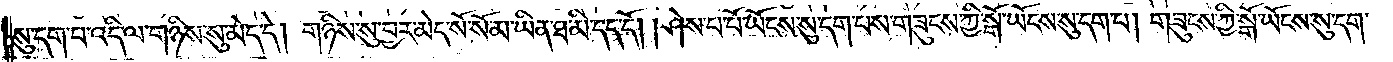སུ་དག་པ་འདི་ལ་གཉིས་སུ་མེད་དེ། གཉིས་སུ་བྱར་མེད་སོ་སོ་མ་ཡིན་ཐ་མི་དད་དོ། །ཤེས་པ་པོ་ཡོངས་སུ་དག་པས་གཟུངས་ཀྱི་སྒོ་ཡོངས་སུ་དག་པ། གཟུངས་ཀྱི་སྒོ་ཡོངས་སུ་དག་
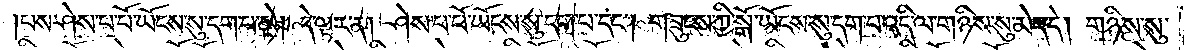པས་ཤེས་པ་པོ་ཡོངས་སུ་དག་པ་སྟེ། དེ་ལྟར་ན། ཤེས་པ་པོ་ཡོངས་སུ་དག་པ་དང༌། གཟུངས་ཀྱི་སྒོ་ཡོངས་སུ་དག་པ་འདི་ལ་གཉིས་སུ་མེད་དེ། གཉིས་སུ་
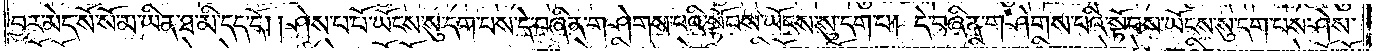བྱར་མེད་སོ་སོ་མ་ཡིན་ཐ་མི་དད་དོ། །ཤེས་པ་པོ་ཡོངས་སུ་དག་པས་དེ་བཞིན་གཤེགས་པའི་སྟོབས་ཡོངས་སུ་དག་པ། དེ་བཞིན་གཤེགས་པའི་སྟོབས་ཡོངས་སུ་དག་པས་ཤེས་
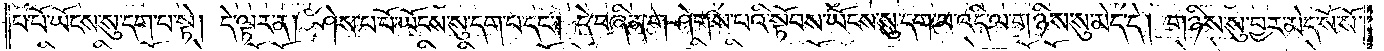པ་པོ་ཡོངས་སུ་དག་པ་སྟེ། དེ་ལྟར་ན། ཤེས་པ་པོ་ཡོངས་སུ་དག་པ་དང༌། དེ་བཞིན་གཤེགས་པའི་སྟོབས་ཡོངས་སུ་དག་པ་འདི་ལ་གཉིས་སུ་མེད་དེ། གཉིས་སུ་བྱར་མེད་སོ་སོ་
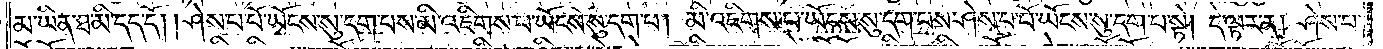མ་ཡིན་ཐ་མི་དད་དོ། །ཤེས་པ་པོ་ཡོངས་སུ་དག་པས་མི་འཇིགས་པ་ཡོངས་སུ་དག་པ། མི་འཇིགས་པ་ཡོངས་སུ་དག་པས་ཤེས་པ་པོ་ཡོངས་སུ་དག་པ་སྟེ། དེ་ལྟར་ན། ཤེས་པ་
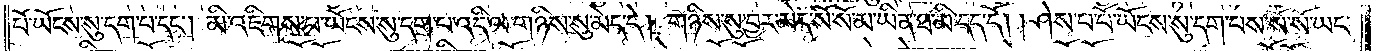པོ་ཡོངས་སུ་དག་པ་དང༌། མི་འཇིགས་པ་ཡོངས་སུ་དག་པ་འདི་ལ་གཉིས་སུ་མེད་དེ། གཉིས་སུ་བྱར་མེད་སོ་སོ་མ་ཡིན་ཐ་མི་དད་དོ། །ཤེས་པ་པོ་ཡོངས་སུ་དག་པས་སོ་སོ་ཡང་
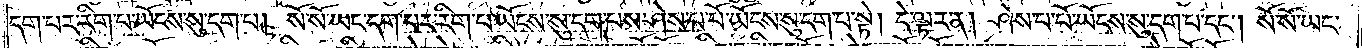དག་པར་རིག་པར་ཡོངས་སུ་དག་པ། སོ་སོ་ཡང་དག་པར་རིག་པ་ཡོངས་སུ་དག་པས་ཤེས་པ་པོ་ཡོངས་སུ་དག་པ་སྟེ། དེ་ལྟར་ན། ཤེས་པ་པོ་ཡོངས་སུ་དག་པ་དང༌། སོ་སོ་ཡང་
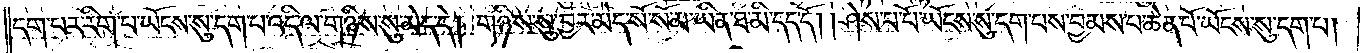དག་པར་རིག་པ་ཡོངས་སུ་དག་པ་འདི་ལ་གཉིས་སུ་མེད་དེ། གཉིས་སུ་བྱར་མེད་སོ་སོ་མ་ཡིན་ཐ་མི་དད་དོ། །ཤེས་པ་པོ་ཡོངས་སུ་དག་པས་བྱམས་པ་ཆེན་པོ་ཡོངས་སུ་དག་པ།
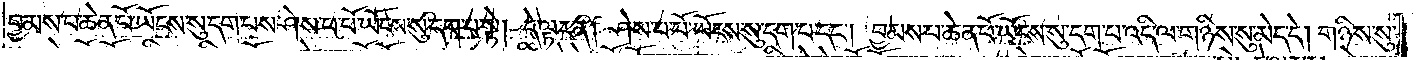བྱམས་པ་ཆེན་པོ་ཡོངས་སུ་དག་པས་ཤེས་པ་པོ་ཡོངས་སུ་དག་པ་སྟེ། དེ་ལྟར་ན། ཤེས་པ་པོ་ཡོངས་སུ་དག་པ་དང༌། བྱམས་པ་ཆེན་པོ་ཡོངས་སུ་དག་པ་འདི་ལ་གཉིས་སུ་མེད་དེ། གཉིས་སུ་
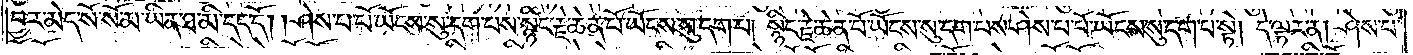བྱར་མེད་སོ་སོ་མ་ཡིན་ཐ་མི་དད་དོ། །ཤེས་པ་པོ་ཡོངས་སུ་དག་པས་སྙིང་རྗེ་ཆེན་པོ་ཡོངས་སུ་དག་པ། སྙིང་རྗེ་ཆེན་པོ་ཡོངས་སུ་དག་པས་ཤེས་པ་པོ་ཡོངས་སུ་དག་པ་སྟེ། དེ་ལྟར་ན། ཤེས་པ་
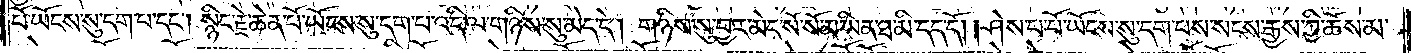པོ་ཡོངས་སུ་དག་པ་དང༌། སྙིང་རྗེ་ཆེན་པོ་ཡོངས་སུ་དག་པ་འདི་ལ་གཉིས་སུ་མེད་དེ། གཉིས་སུ་བྱར་མེད་སོ་སོ་མ་ཡིན་ཐ་མི་དད་དོ། །ཤེས་པ་པོ་ཡོངས་སུ་དག་པས་སངས་རྒྱས་ཀྱི་ཆོས་མ་
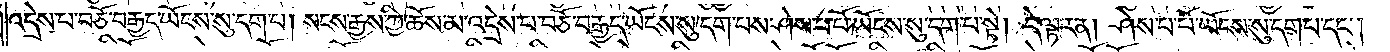འདྲེས་པ་བཅོ་བརྒྱད་ཡོངས་སུ་དག་པ། སངས་རྒྱས་ཀྱི་ཆོས་མ་འདྲེས་པ་བཅོ་བརྒྱད་ཡོངས་སུ་དག་པས་ཤེས་པ་པོ་ཡོངས་སུ་དག་པ་སྟེ། དེ་ལྟར་ན། ཤེས་པ་པོ་ཡོངས་སུ་དག་པ་དང༌།
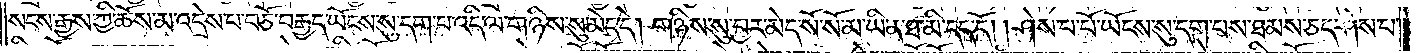སངས་རྒྱས་ཀྱི་ཆོས་མ་འདྲེས་པ་བཅོ་བརྒྱད་ཡོངས་སུ་དག་པ་འདི་ལ་གཉིས་སུ་མེད་དེ། གཉིས་སུ་བྱར་མེད་སོ་སོ་མ་ཡིན་ཐ་མི་དད་དོ། །ཤེས་པ་པོ་ཡོངས་སུ་དག་པས་ཐམས་ཅད་ཤེས་པ་
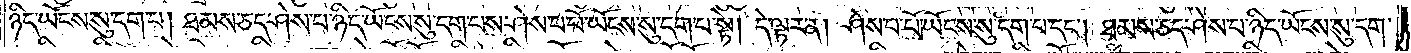ཉིད་ཡོངས་སུ་དག་པ། ཐམས་ཅད་ཤེས་པ་ཉིད་ཡོངས་སུ་དག་པས་ཤེས་པ་པོ་ཡོངས་སུ་དག་པ་སྟེ། དེ་ལྟར་ན། ཤེས་པ་པོ་ཡོངས་སུ་དག་པ་དང༌། ཐམས་ཅད་ཤེས་པ་ཉིད་ཡོངས་སུ་དག་
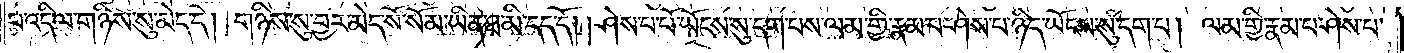པ་འདི་ལ་གཉིས་སུ་མེད་དེ། གཉིས་སུ་བྱར་མེད་སོ་སོ་མ་ཡིན་ཐ་མི་དད་དོ། །ཤེས་པ་པོ་ཡོངས་སུ་དག་པས་ལམ་གྱི་རྣམ་པ་ཤེས་པ་ཉིད་ཡོངས་སུ་དག་པ། ལམ་གྱི་རྣམ་པ་ཤེས་པ་
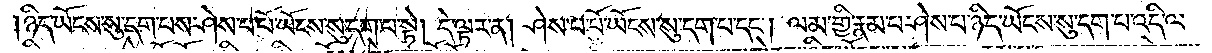ཉིད་ཡོངས་སུ་དག་པས་ཤེས་པ་པོ་ཡོངས་སུ་དག་པ་སྟེ། དེ་ལྟར་ན། ཤེས་པ་པོ་ཡོངས་སུ་དག་པ་དང༌། ལམ་གྱི་རྣམ་པར་ཤེས་པ་ཉིད་ཡོངས་སུ་དག་པ་འདི་ལ་
